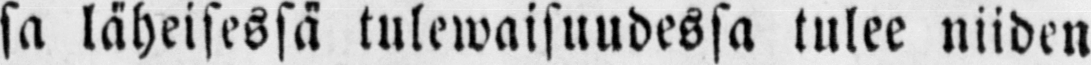sa läheisessä tulewaisuudessa tulee niiden
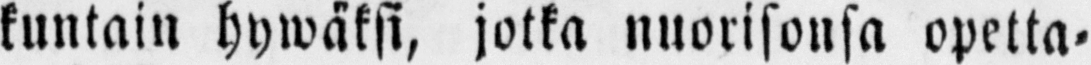kuntain hywäksi, jotka nuorisonsa opetta-
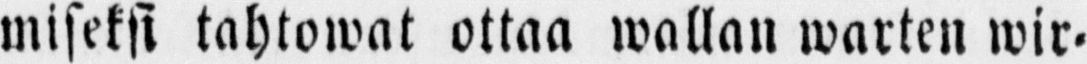miseksi tahtowat ottaa wallan warten wir-
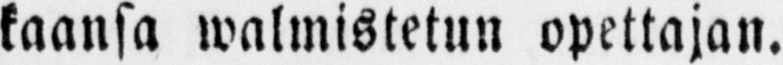kaansa walmistetun opettajan.
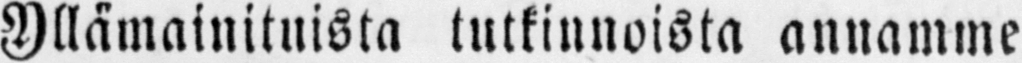Yllämainituista tutkinnoista annamme
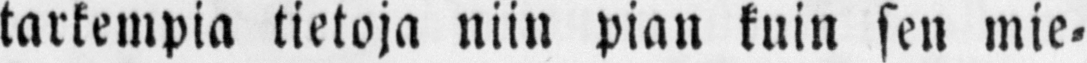tarkempia tietoja niin pian kuin sen mie-
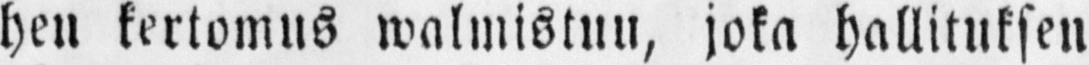hen kertomus walmistuu, joka hallituksen
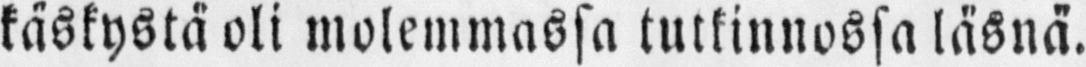käskystä oli molemmassa tutkinnossa läsnä.
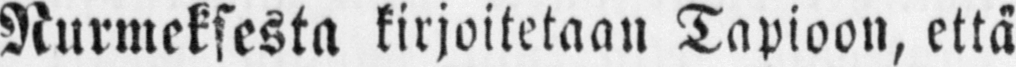Nurmeksessa kirjoitetaan Tapioon, että
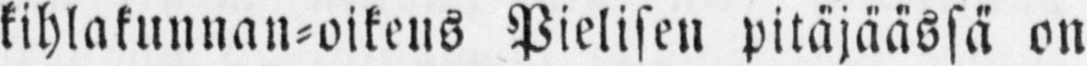kihlakunnan-oikeus Pielisen pitäjäässä on
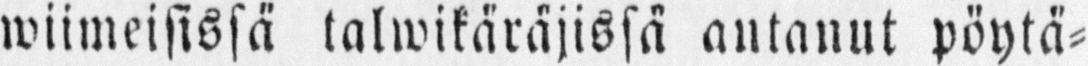wiimeisissä talwikäräjissä antanut pöytä-
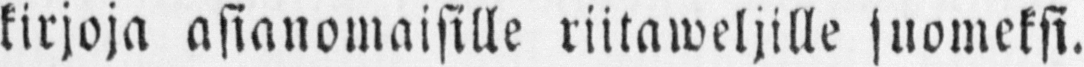kirjoja asianomaisille riitaweljille juomeksi.
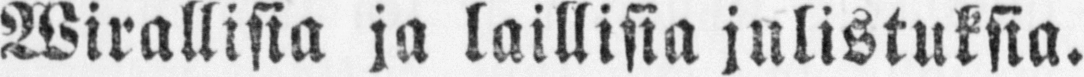Wirallisia ja laillisia julistuksia.
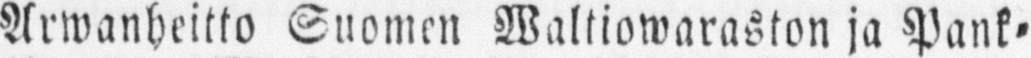Arwanheitto Suomen Waltiowaraston ja Pank-
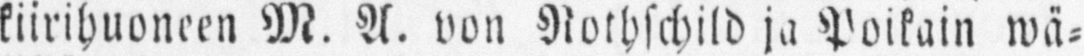kiirihuoneen M. A. von Nothschild ja Poikain wä-
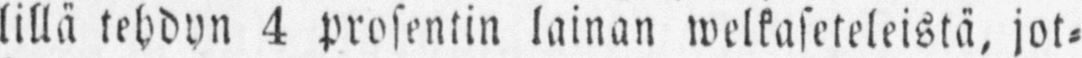lillä tehdyn 4 prosentin lainan welkaseteleistä, jot-
